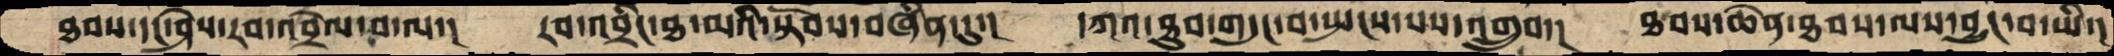ཐབས་དང་ཤེས་རབ་འབྲེལ་བ་ལ་།  རབ་འབྲིང་ཐ་མའི་སྟོབས་བཞིན་དུ་།  དཀའ་ཐུབ་གདུང་བ་སྤངས་པས་འགྲུབ་།  ཐབས་ཆེན་ཐབས་ལས་བྱུང་བ་ཡི་།
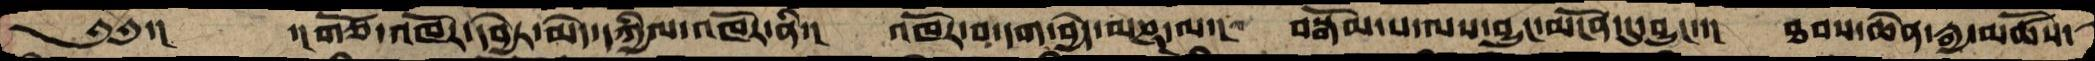༄༅་།      ་།གཙོ་འཁོར་དབྱེར་མེད་དཀྱིལ་འཁོར་ནི་།  འཁོར་བ་དག་བྱེད་མཎྜ་ལ་།  བསྒོམ་པ་ལས་བྱུང་མངོན་དུ་བྱུང་་།  ཐབས་ཆེན་རྒྱ་མཚོས་
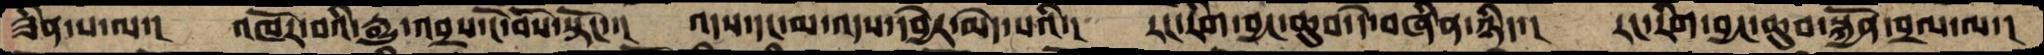ཟིན་པ་ལ་།  འཁོར་བའི་རྒྱུ་འབྲས་ངོ་བོས་སྟོང་་།  འདས་དང་མ་འདས་དབྱེར་མེད་པའི་།  རང་རིག་བྱང་ཆུབ་དེ་བཞིན་ཉིད་།  རང་རིག་བྱང་ཆུབ་སྐྱོན་བྲལ་ལ་།
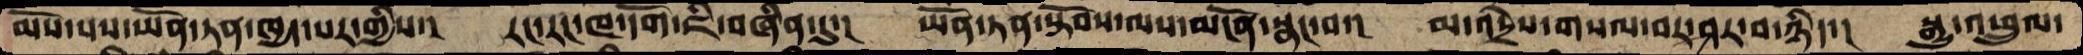མོས་པས་ཡོན་ཏན་ཁྱད་པར་གྱིས་།  རང་རང་ཁ་དོག་ཇི་བཞིན་དུ་།  ཡོན་ཏན་སྟོབས་ལས་མངོན་སྣང་བ་།  མ་འདྲེས་གསལ་བར་ཤར་བ་ཉིད་།  སྒྱུ་འཕྲུལ་
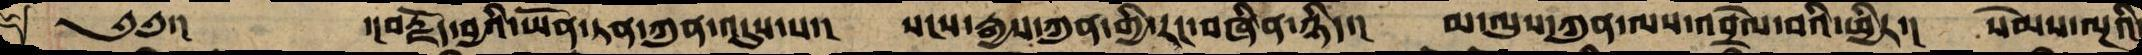༄༅་།    ་།བརྗོད་བྱའི་ཡོན་ཏན་ཀུན་འདུས་པ་།  སངས་རྒྱས་ཀུན་གྱི་རང་བཞིན་ཉིད་།  མ་ལུས་ཀུན་ལས་འབྲེལ་བའི་ཕྱིར་།  སེམས་ལྔའི་
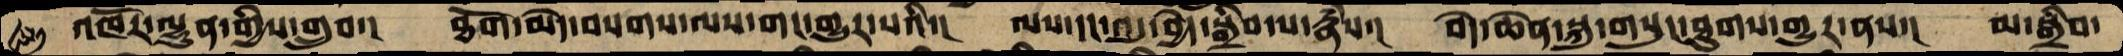འཁོར་ལྷུན་གྱིས་གྲུབ་།  ཐོག་མེད་བསགས་ལས་གང་གྱུར་པའི་།  ལས་དང་འདུ་བྱེད་སྒྲིབ་པ་རྣཾས་།  བདེ་ཆེན་སྐུ་གསུང་ཐུགས་གྱུར་ནས་།  མ་སྒྲིབ་
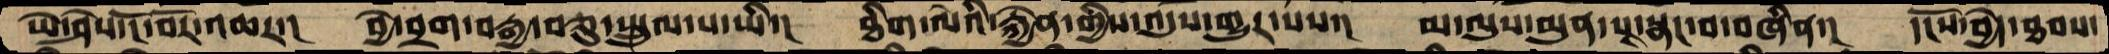ཡེ་ཤེས་ངོ་བོར་འཆར་།  བྱེ་བྲག་བརྒྱ་བཅུ་སྤྲུལ་པ་ཡི་།  ཐིག་ལེའི་རྐྱེན་གྱིས་འདུས་གྱུར་པས་།  མ་ལུས་མུན་པ་སྣང་བ་བཞིན་།  དངོས་བྱེད་ཐབས་
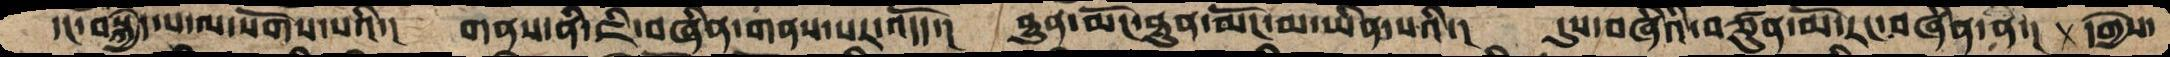དང་བསྐྱེད་པ་ལ་སོགས་པའི་།  གནས་ནི་ཇི་བཞིན་གནས་པར་འདོད་།  ཐུན་མོང་ཐུན་མོང་མ་ཡིན་པའི་།  དུས་བཞིའི་བཙུན་མོ་རང་བཞིན་ན་།  དགྱེས་
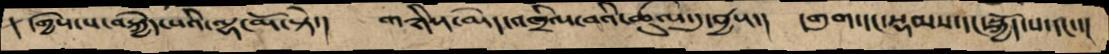དགྱེས་པ་བསྐྱེད་པའི་ལྷ་མོ་སྟེ་།  གཉིས་མེད་འཁྲིལ་བའི་ཚུལ་དུ་བྱས་།  དགུག་དང་སྡམས་དང་སྐྱོད་པ་དང་་།
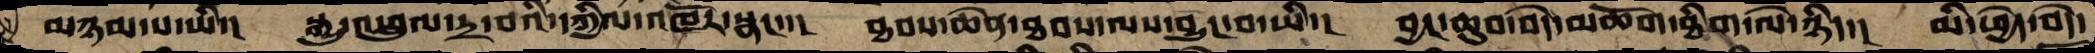མཉམ་པ་ཡི་།  སྒྱུ་འཕྲུལ་དྲ་བའི་དཀྱིལ་འཁོར་སྣང་་།  ཐབས་ཆེན་ཐབས་ལས་བྱུང་བ་ཡི་།  བྱང་ཆུབ་བདེ་མཆོག་ཐིག་ལེ་ཉིད་།  མི་ཕྱེད་བདེ་
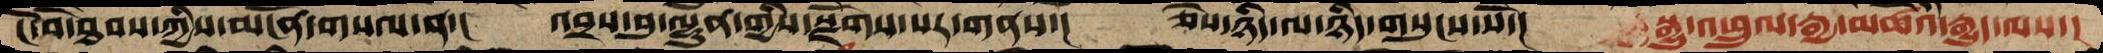ངོ་བོ་ཐབས་ཀྱིས་མངོན་གསལ་ན་།  འབྲས་བུ་ལྷུན་གྱིས་སྫོགས་པར་གནས་།  ཅེས་ཉིད་ལ་ཉིད་གསུངས་སོ་།  སྒྱུ་འཕྲུལ་རྒྱ་མཚོའི་རྒྱུད་ལས་།
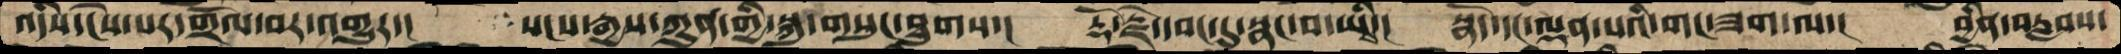འདིས་ངེས་པར་གྲོལ་བར་འགྱུར་།  སངས་རྒྱས་ཀུན་གྱི་སྐུ་གསུང་ཐུགས་།  རྡོ་རྗེ་དབང་དུ་སྣང་བ་ཡིས་།  སྣོད་དང་ལྡན་པའི་ལགང་ཟག་ལ་།  བྱིན་བརླབས་
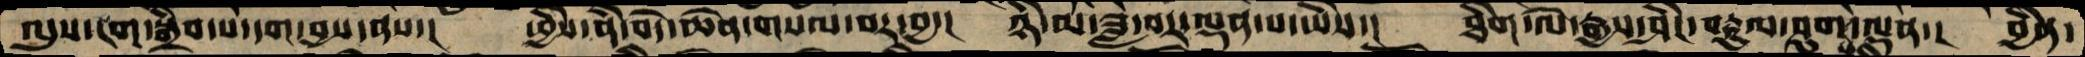ལུས་ངག་སྒྲིབ་པ་དག་བྱས་ནས་།  ཕྱིས་ནི་བདེ་ཆེན་གསལ་བར་བྱ་།  ཉི་མ་ཟླ་བར་ལྡན་པ་ཡིས་།  ཐིག་ལེ་རྒྱས་ཤིང་བརྟུལ་ཤུགས་ལྡན་།  བྱིན་
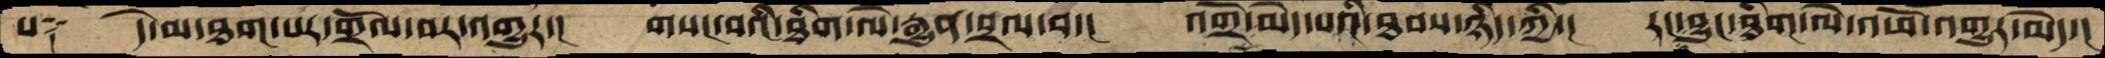པ༑  དེ་མ་ཐག་པར་གྲོལ་བར་འགྱུར་།  གསང་བའི་ཐིག་ལེ་རྒྱུན་བྲལ་བ་།  འགྲོ་མེད་པའི་ཐབས་ཉིད་ཀྱི་།  རང་བྱུང་ཐིག་ལེ་འཕོ་འགྱུར་མེད་།
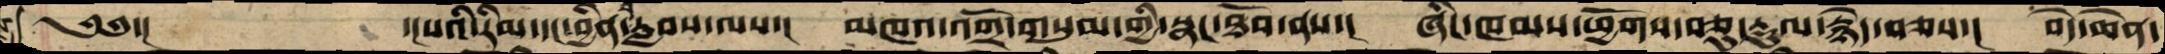༄༅་།    ་།པའི་རིམ་དང་བྱིན་བརླབས་ལས་།  མཁའ་འགྲོ་གསུམ་གྱི་སྣང་ཐོབ་ནས་།  ཞིང་ཁམས་ཕྱོགས་བཅུ་རྡུལ་རྙེད་བཅས་།  བདེ་ཆེན་
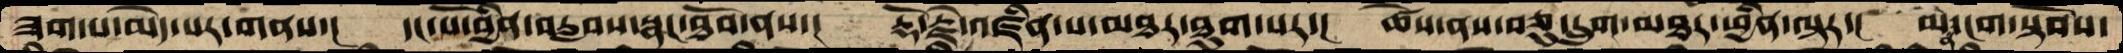ཟག་པ་མེད་པར་གནས་།  དང་པོ་བྱིན་བརླབས་སྣང་ཐོབ་ནས་།  རྡོ་རྗེ་འཛིན་པ་མཐར་ཐུག་པར་།  ཚེས་ནས་བཅུ་དྲུག་མཐར་ཕྱིན་ལྟར་།  མན་ངག་སྟོབས་
